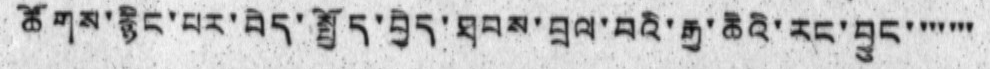ཚོགས་རྙིང་པར་བེད་སྤྱོད་བྱེད་ཐབས་བྲལ་བའི་རྒྱ་ཆེའི་རང་བྱུང་་་་་་་
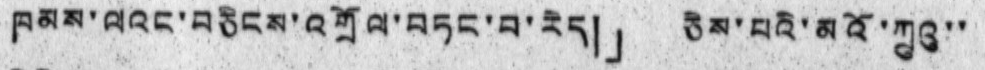ཁམས་ལའང་བཅིངས་འགྲོལ་བཏང་བ་རེད།」 ཅེས་པའི་མའོ་ཀྲུའུ་་
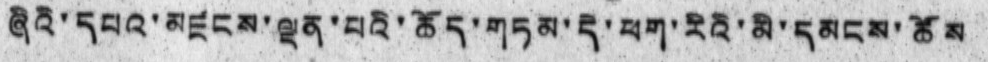ཞིའི་དཔའ་མཛངས་ལྡན་པའི་ཆོད་གཏམ་དེ་ཕག་རིའི་མི་དམངས་ཚོས
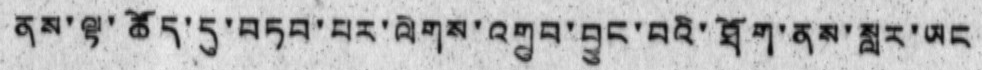ནས་ལྟ་ཚོད་དུ་བཏབ་པར་ལེགས་འགྲུབ་བྱུང་བའི་ཐོག་ནས་སླར་ཡང
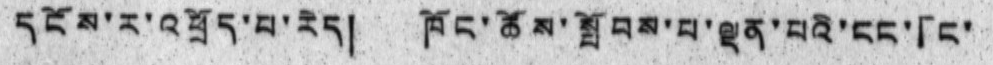དངོས་ར་འཕྲོད་པ་རེད། ཁོང་ཚོས་སྤོབས་བ་ལྡན་པའི་ངང་「ང་
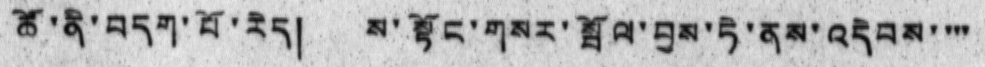ཚོ་ནི་བདག་པོ་རེད། ས་སྟོང་གསར་སྦོལ་བྱས་ཏེ་ནས་འདེབས་་་་
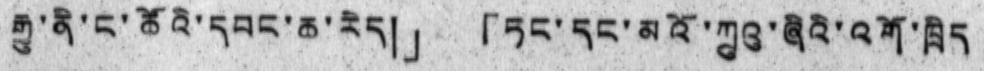རྒྱུ་ནི་ང་ཚོའི་དབང་ཆ་རེད། 」「ཏང་དང་མའོ་ཀྲུའུ་ཞིའི་འགོ་ཁྲིད
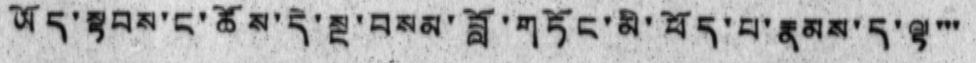ཡོད་སྟབས་ང་ཚོས་དེ་སྔ་བསམ་བློ་གཏོང་མི་ཕོད་པ་རྣམས་ད་ལྟ་་་
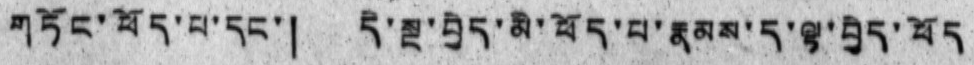གཏོང་ཕོད་པ་དང་། དེ་སྔ་བྱེད་མི་ཕོད་པ་རྣམས་ད་ལྟ་བྱེད་ཕོད
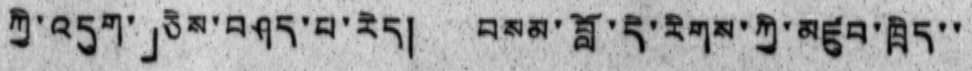ཀྱི་འདུག་」ཅེས་བཤད་པ་རེད། བསམ་བློ་དེ་རིགས་ཀྱི་མཛུབ་ཁྲིད་་
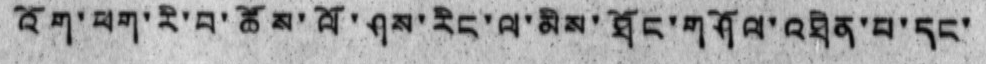འོག་ཕག་རི་བ་ཚོས་ལོ་ཤས་རིང་ལ་མིས་ཐོང་གཤོལ་འཐེན་པ་དང་
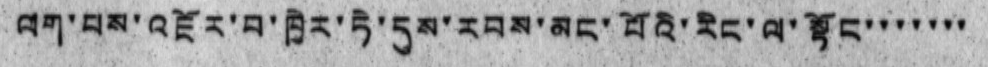ལག་པས་འཇོར་བ་ཁྱེར་ཏེ་དུས་རབས་མང་པོའི་རིང་ལ་སྟོང་་་་་་་
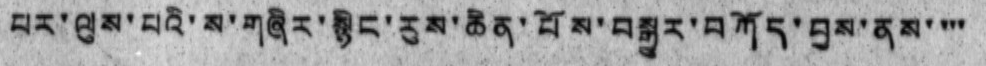པར་ལུས་པའི་ས་གཞིར་སྙིང་རུས་ཆེན་པོས་བསྒྱུར་བཀོད་བྱས་ནས་་་་
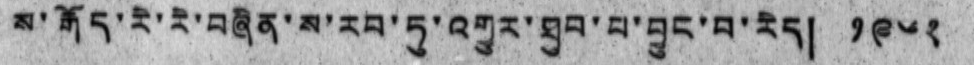ས་རྒོད་རེ་རེ་བཞིན་ས་རབ་ཏུ་འགྱུར་ཐུབ་པ་བྱུང་བ་རེད། ༡༩༦༢
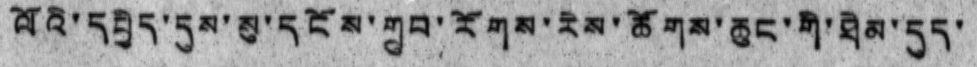ལོའི་དཔྱིད་དུས་སུ་དངོས་གྲུབ་རོགས་རེས་ཚོགས་ཆུང་གི་ཐེམ་དུད་
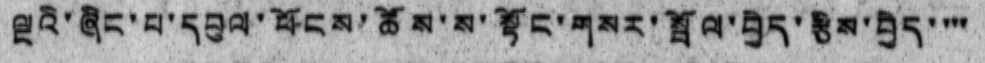ལྔའི་ཞིང་པ་དབུལ་ཕོངས་ཚོས་ས་སྟོང་གསར་སྦོལ་བྱེད་རྩིས་བྱེད་་་་
